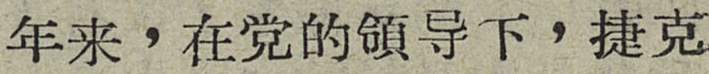年来，在党的領导下，捷克
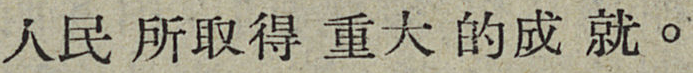人民所取得重大的成就。
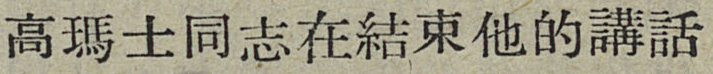高瑪士同志在結束他的講話
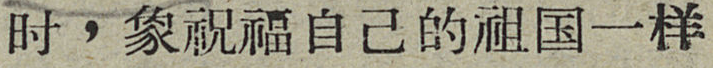时，象祝福自己的祖国一样
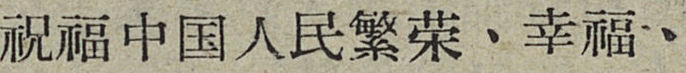祝福中国人民繁荣、幸福、
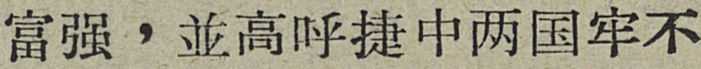富强，並高呼捷中两国牢不
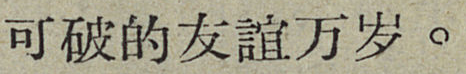可破的友誼万岁。
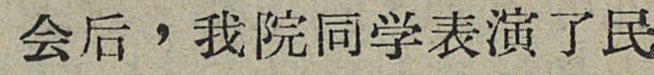会后，我院同学表演了民
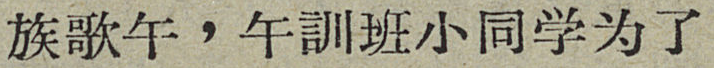族歌午，午訓班小同学为了
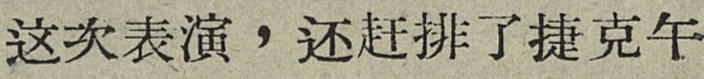这次表演，还赶排了捷克午
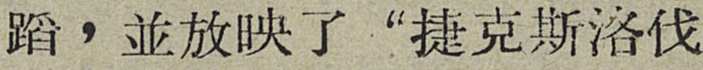蹈，並放映了“捷克斯洛伐
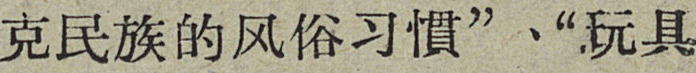克民族的风俗习慣”、“玩具
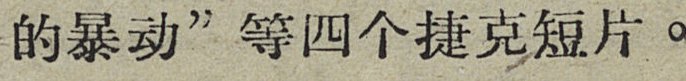的暴动”等四个捷克短片。
